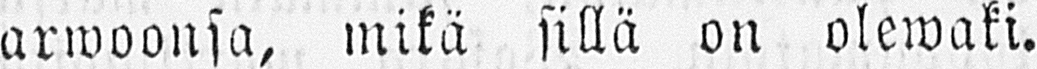arwoonsa, mikä sillä on olewaki.
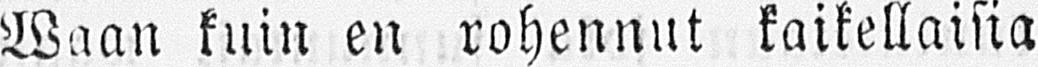Waan kuin en rohennut kaikellaisia
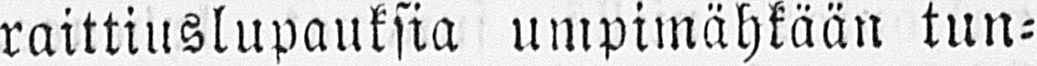raittiuslupauksia umpimähkään tun-
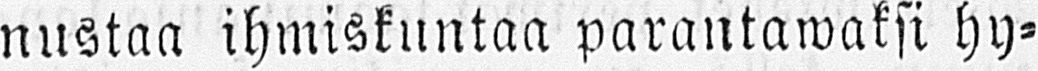nustaa ihmiskuntaa parantawaksi hy-
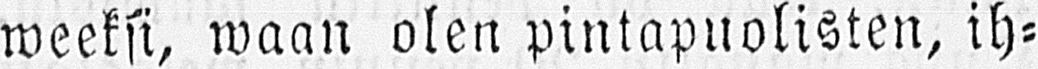weeksi, waan olen pintapuolisten, ih-
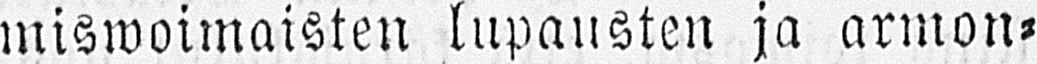miswoimaisten lupausten ja armon-
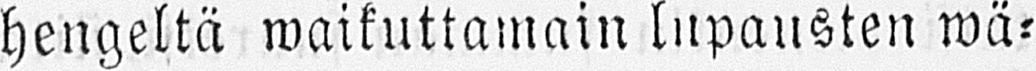hengeltä waikuttamain lupausten wä-
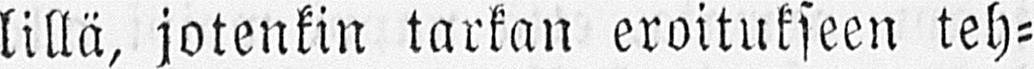lillä, jotenkin tarkan eroitukseen teh-
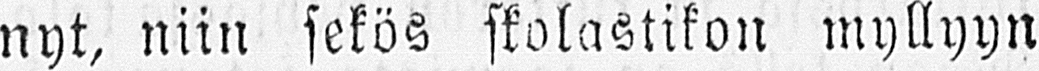nyt, niin sekös skolastikon myllyyn
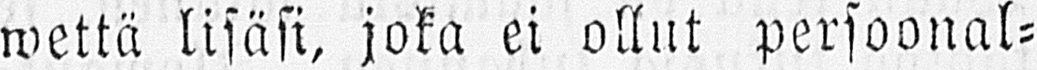wettä lisäsi, joka ei ollut persoonal-
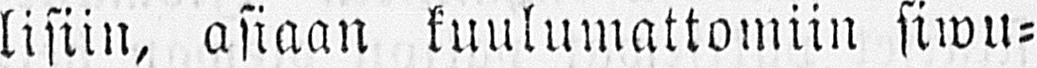lisiin, asiaan kuulumattomiin siwu-
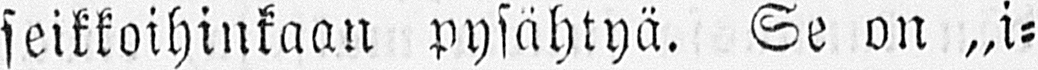seikkoihinkaan pysähtyä. Se on „i-
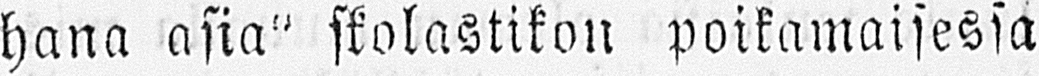hana asia" skolastikon poikamaisessa
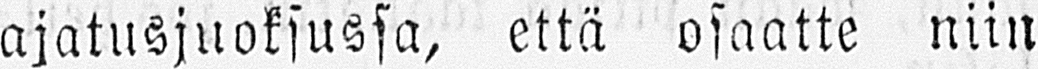ajatusjuoksussa, että osaatte niin
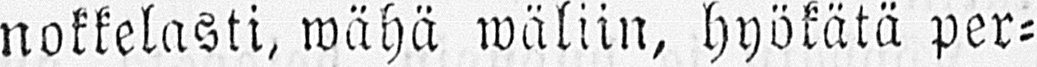nokkelasti, wähä wäliin, hyökätä per-
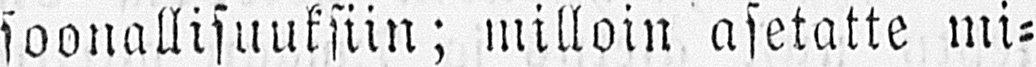soonallisuuksiin; milloin asetatte mi-
